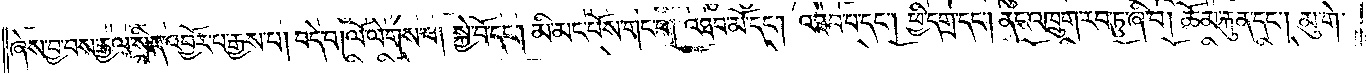ཞེས་བྱ་བས་རྒྱལ་སྲིད་འབྱོར་པ་རྒྱས་པ། བདེ་བ། ལོ་ལེགས་པ། སྐྱེ་བོ་དང༌། མི་མང་པོས་གང་བ། འཐབ་མོ་དང༌། འཐབ་པ་དང༌། ཕྱི་དགྲ་དང༌། ནང་འཁྲུག་རབ་ཏུ་ཞི་བ། ཆོམ་རྐུན་དང༌། མུ་གེ་
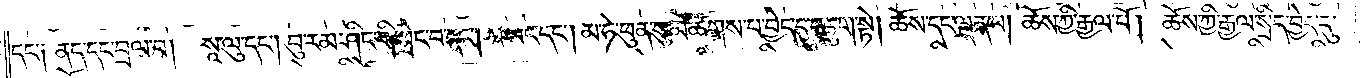དང་༑ ནད་དང་བྲལ་བ། སཱ་ལུ་དང༌། བུ་རམ་ཤིང་གི་ཕྲེང་བ་དང༌། བ་ལང་དང༌། མ་ཧེ་ཕུན་སུམ་ཚོགས་པ་བྱེད་དུ་བཅུག་སྟེ། ཆོས་དང་ལྡན་པ། ཆོས་ཀྱི་རྒྱལ་པོ། ཆོས་ཀྱི་རྒྱལ་སྲིད་བྱེད་དུ་
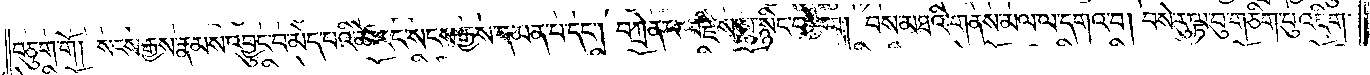བཅུག་གོ །སངས་རྒྱས་རྣམས་འབྱུང་བ་མེད་པའི་ཚེ་རང་སངས་རྒྱས་དམན་པ་དང༌། བཀྲེན་པ་ལ་རྗེས་སུ་སྙིང་བརྩེ་བ། བས་མཐའི་གནས་མལ་ལ་དགའ་བ། བསེ་རུ་ལྟ་བུ་གཅིག་པུ་འཇིག་
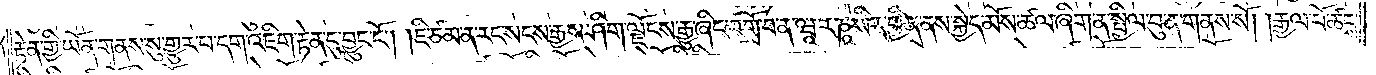རྟེན་གྱི་ཡོན་གནས་སུ་གྱུར་པ་དག་འཇིག་རྟེན་དུ་བྱུང་ངོ༌། །ཇི་ཙམ་ན་རང་སངས་རྒྱས་ཤིག་ལྗོངས་རྒྱུ་ཞིང་འགྲོ་བ་ན་ཝཱ་ར་ཎཱ་སིར་ཕྱིན་ནས་སྐྱེད་མོས་ཚལ་ཞིག་ན་སྤྱིལ་བུ་ན་གནས་སོ། །རྒྱལ་པོ་ཚངས་
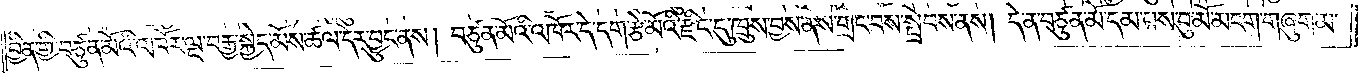བྱིན་གྱི་བཙུན་མོའི་འཁོར་ལྔ་བརྒྱ་སྐྱེད་མོས་ཚལ་དེར་བྱུང་ནས། བཙུན་མོའི་འཁོར་དེ་དག་རྩེ་མོའི་རྫིང་དུ་ཁྲུས་བྱས་ནས་གྲང་བས་སྤྲེབས་ནས། དེ་ན་བཙུན་མོ་དམ་པས་བུ་མོ་མངག་གཞུག་མ་
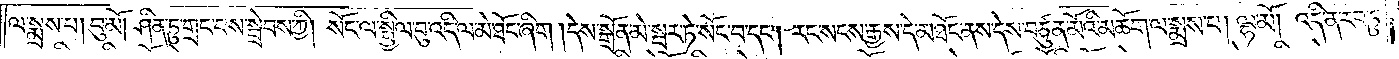ལ་སྨྲས་པ། བུ་མོ། ཤིན་ཏུ་གྲང་བས་སྦྲེབས་ཀྱི། སོང་ལ་སྤྱིལ་བུ་འདི་ལ་མེ་ཐོང་ཞིག །དེས་སྒྲོན་མེ་སྦར་ཏེ་སོང་བ་དང༌། རང་སངས་རྒྱས་དེ་མཐོང་ནས་དེས་བཙུན་མོའི་མཆོག་ལ་སྨྲས་པ། ལྷ་མོ། འདི་ན་རབ་ཏུ་
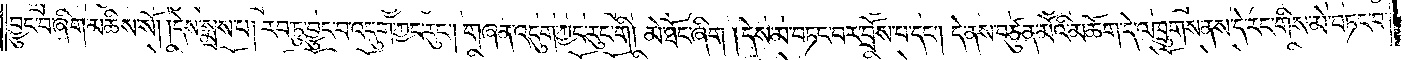བྱུང་བ་ཞིག་མཆིས་སོ། །དེས་སྨྲས་པ། རབ་ཏུ་བྱུང་བ་འདུག་ཀྱང་རུང༌། གཞན་འདུག་ཀྱང་རུང་གི། མེ་ཐོང་ཞིག། དེས་མ་བཏང་བར་བྲོས་པ་དང༌། དེ་ནས་བཙུན་མོའི་མཆོག་དེ་འཁྲུགས་ནས་དེ་རང་གིས་མེ་བཏང་བ་
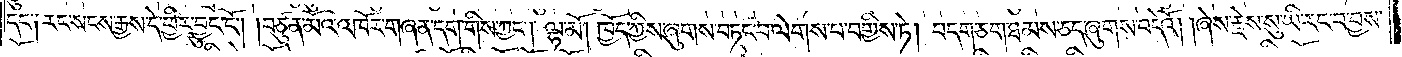དང་༑ རང་སངས་རྒྱས་དེ་ཕྱིར་བྱུང་ངོ༌། །བཙུན་མོའི་འཁོར་གཞན་དག་གིས་ཀྱང༌། ལྷ་མོ། ཁྱོད་ཀྱིས་ཞུགས་བཏང་བ་ལེགས་པ་བགྱིས་ཏེ། བདག་ཅག་ཐམས་ཅད་ཞུགས་བདེའོ། །ཞེས་རྗེས་སུ་ཡི་རང་བ་བྱས་
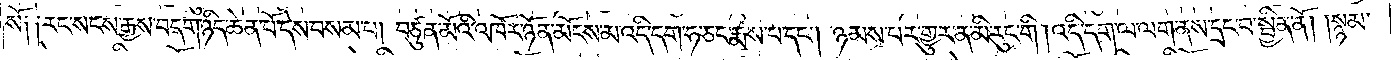སོ༑ ༑རང་སངས་རྒྱས་བདག་ཉིད་ཆེན་པོ་དེས་བསམ་པ། བཙུན་མོའི་འཁོར་ཉོན་མོངས་མ་འདི་དག་ཧ་ཅང་རྨས་པ་དང༌། ཉམས་པར་གྱུར་ན་མི་རུང་གི། འདི་དག་ལ་ལག་ནས་དྲང་བ་སྦྱིན་ནོ། །སྙམ་
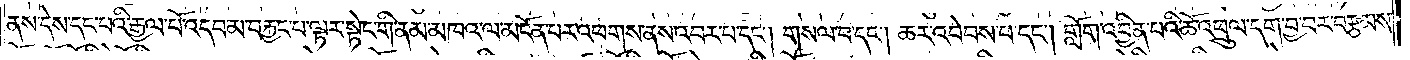ནས་དེས་དང་པའི་རྒྱལ་པོ་འདབ་མ་བརྐྱང་པ་ལྟར་སྟེང་གི་ནམ་མཁའ་ལ་མངོན་པར་འཕགས་ནས་འབར་པ་དང༌། གསལ་བ་དང༌། ཆར་འབེབས་པ་དང༌། གློག་འབྱིན་པའི་ཆོ་འཕྲུལ་དག་བྱ་བར་བརྩམས་
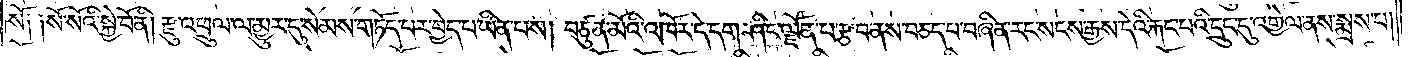སོ༑ ༑སོ་སོའི་སྐྱེ་བོ་ནི། རྫུ་འཕྲུལ་ལ་མྱུར་དུ་སེམས་གཏོད་པར་བྱེད་པ་ཡིན་པས། བཙུན་མོའི་འཁོར་དེ་དག་ཤིང་ལྗོན་པ་རྩ་བ་ནས་བཅད་པ་བཞིན་རང་སངས་རྒྱས་དེའི་རྐང་པའི་དྲུང་དུ་འགྱེལ་ནས་སྨྲས་པ།
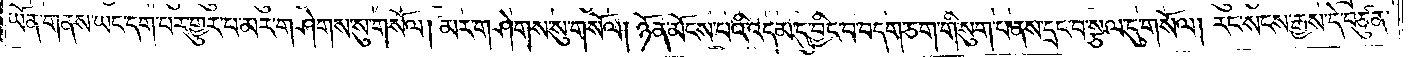ཡོན་གནས་ཡང་དག་པར་གྱུར་པ་མར་གཤེགས་སུ་གསོལ། མར་གཤེགས་སུ་གསོལ། ཉོན་མོངས་པའི་འདམ་དུ་བྱིང་བ་བདག་ཅག་གི་སུག་པ་ནས་དྲང་བ་སྩལ་དུ་གསོལ། རང་སངས་རྒྱས་དེ་བཙུན་
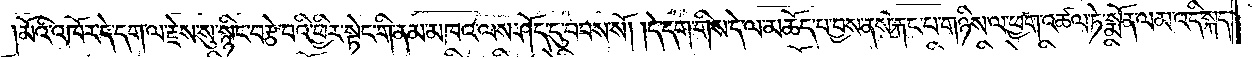མོའི་འཁོར་དེ་དག་ལ་རྗེས་སུ་སྙིང་བརྩེ་བའི་ཕྱིར་སྟེང་གི་ནམ་མཁའ་ལས་ཤོད་དུ་བབས་སོ། །དེ་དག་གིས་དེ་ལ་མཆོད་པ་བྱས་ནས་རྐང་པ་གཉིས་ལ་ཕྱག་འཚལ་ཏེ་སྨོན་ལམ་འདི་སྐད་
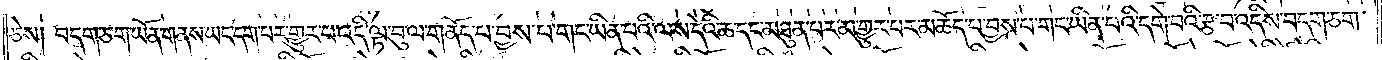ཅེས། བདག་ཅག་ཡོན་གནས་ཡང་དག་པར་གྱུར་པ་འདི་ལྟ་བུ་ལ་གནོད་པ་བྱས་པ་གང་ཡིན་པའི་ལས་དེའི་ཆ་དང་མཐུན་པར་མ་གྱུར་པར་མཆོད་པ་བྱས་པ་གང་ཡིན་པའི་དགེ་བའི་རྩ་བ་འདིས་བདག་ཅག་
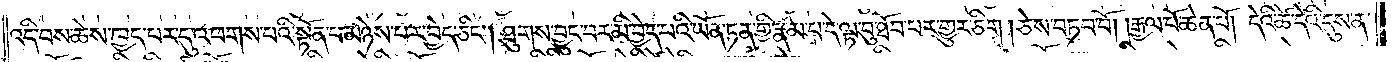འདི་བས་ཆེས་ཁྱད་པར་དུ་འཕགས་པའི་སྟོན་པ་མཉེས་པར་བྱེད་ཅིང༌། ཐུགས་བྱུང་བར་མི་བྱེད་པའི་ཡོན་ཏན་གྱི་རྣམ་པ་དེ་ལྟ་བུ་ཐོབ་པར་གྱུར་ཅིག །ཅེས་བཏབ་བོ། །རྒྱལ་པོ་ཆེན་པོ། དེའི་ཚེ་དེའི་དུས་ན་
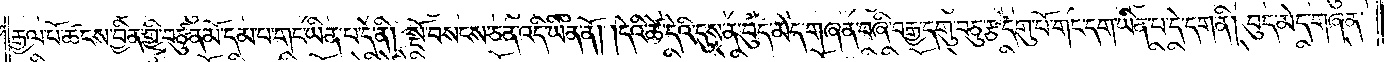རྒྱལ་པོ་ཚངས་བྱིན་གྱི་བཙུན་མོ་དམ་པ་གང་ཡིན་པ་དེ་ནི། སྔོ་བསངས་ཅན་འདི་ཡིན་ནོ། །དེའི་ཚེ་དེའི་དུས་ན་བུད་མེད་གཞན་བཞི་བརྒྱ་དགུ་བཅུ་རྩ་དགུ་པོ་གང་དག་ཡིན་པ་དེ་དག་ནི། བུད་མེད་གཞན་
